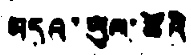མདའ་ཡུལ་ཚོའི
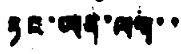ཏང་ཡན་ལག་་
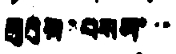པུའུས་བསམ་་་
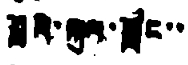བློའི་སྐུལ་སློང་་
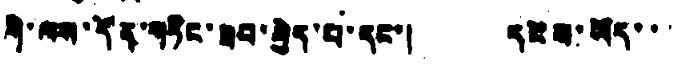གི་ལས་དོན་གཏིང་ཐབ་བྱེད་པ་དང་། དངོས་ཡོད་་་
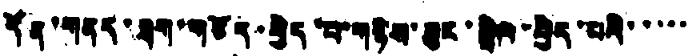དོན་གནད་ཐག་གཅོད་བྱེད་པ་གཉིས་ཟུང་སྦྲེལ་བྱེད་པའི་་་་་
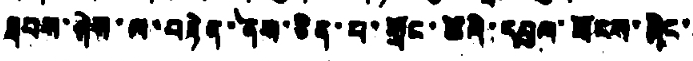ཐབས་ཞེས་ལ་བརྟེན་ནས་ཅིན་པ་གྲོང་ཚོའི་དབུལ་ཕོངས་ཞིང་
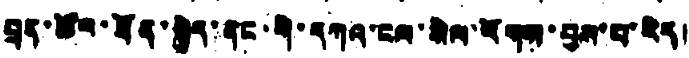བྲན་ཚོར་ཐོན་སྐྱེད་ནང་གི་དཀའ་ངལ་སེལ་རོགས་བྱས་པ་རེད།
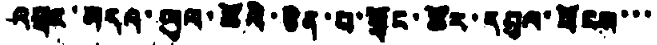འཕྲང་མདའ་ཡུལ་ཚོའི་ཅིན་པ་གྲོང་ཚོར་དབུལ་ཕོངས་་་
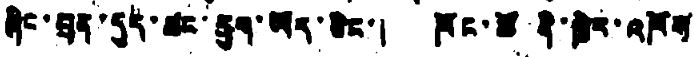ཞིང་བྲན་དུད་ཚང་དྲུས་ཡོད་ཅིང་། ཁོང་ཚོ་ནི་ཁྲེར་འཁོས
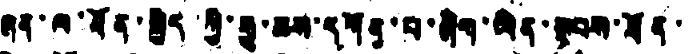ཞན་ལ་ཐོན་སྐྱེད་ཀྱི་རྒྱུ་ཆས་དཀོན་པ་ཞིག་ཡིན་སྟབས་ཐོན་
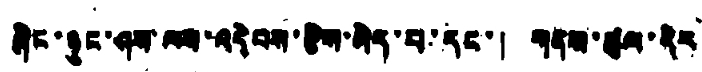ཞིང་ཉུང་ཤས་ལས་འདེབས་རྩིས་མེད་པ་དང་། གནས་ཚུལ་དེར
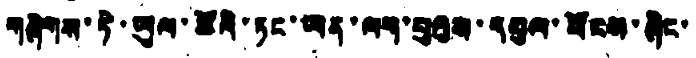གཞིགས་ཏེ་ཡུལ་ཚོའི་ཏང་ཡན་ལག་བུའུས་དབུལ་ཕོངས་ཞིང་
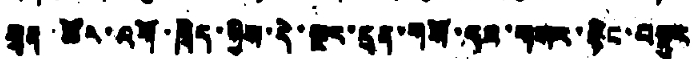བྲན་ཚོའི་འགོ་ཁྲིད་ཀྱིས་དེ་སྔར་དྲན་གསོ་དང་གསར་རྙིང་བསྡུར
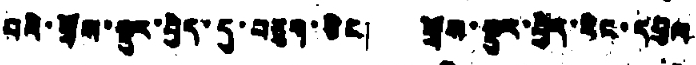བའི་གྲོས་སྡུར་བྱེད་དུ་བཅུག་ཅིང། གྲོས་སྡུར་བྱེད་རིང་དབུལ
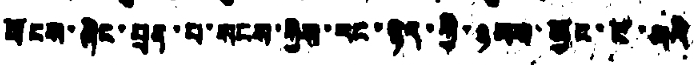ཕོངས་ཞིང་བྲན་བ་སངས་ཀྱིས་རང་ཉིད་ཀྱི་ཉམས་མྱོང་ངོ་མའི
